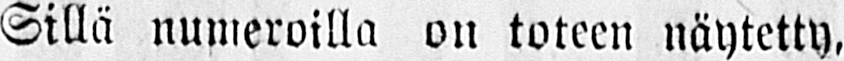Sillä numeroilla on toteen näytetty,
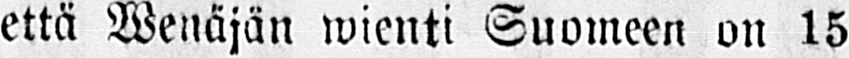että Wenäjän wienti Suomeen on 15
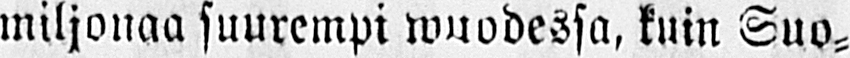miljonaa suurempi wuodessa, kuin Suo-
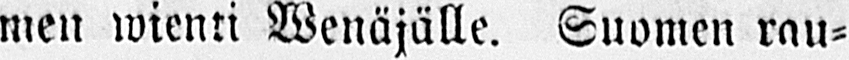men wienti Wenäjälle. Suomen rau-
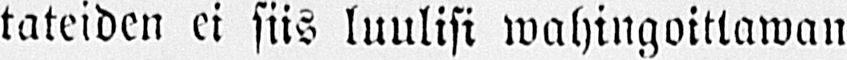tateiden ei siis luulisi wahingoittawan
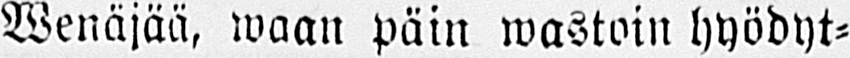Wenäjää, waan päin wastoin hyödyt-
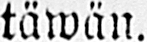täwän.
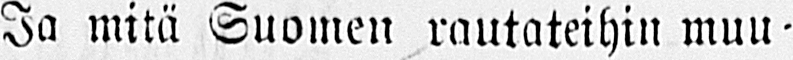Ja mitä Suomen rautateihin muu-
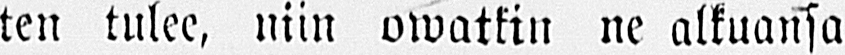ten tulee, niin owatkin ne alkuansa
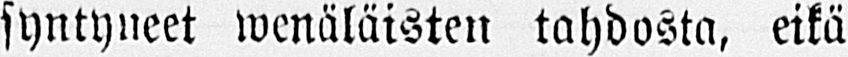syntyneet wenäläisten tahdosta, eikä
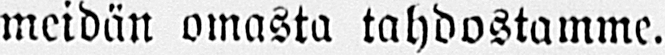meidän omasta tahdostamme.
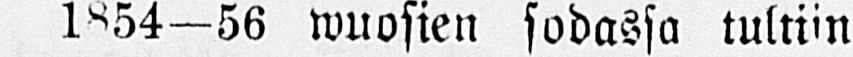1854-56 wuosien sodassa tultiin
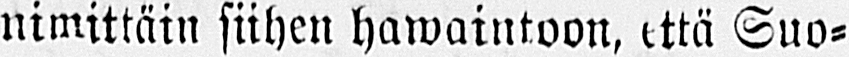nimittäin siihen hawaintoon, että Suo-
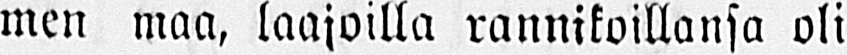men maa, laajoilla rannikoillansa oli
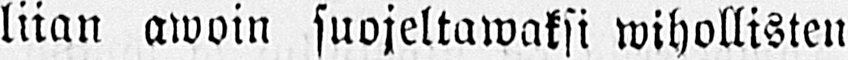liian awoin suojeltawaksi wihollisten
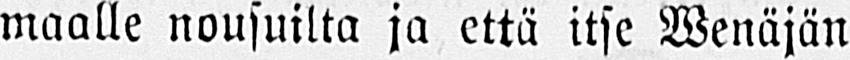maalle nousuilta ja että itse Wenäjän
